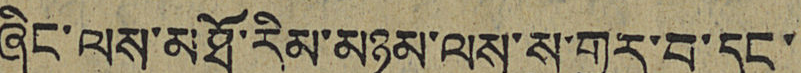ཞིང་ལས་མཐོ་རིམ་མཉམ་ལས་སུ་གྱུར་བ་དང་
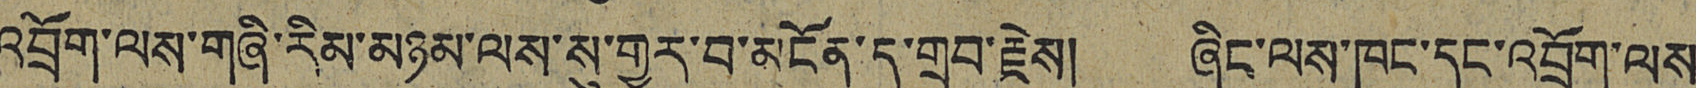འབྲོག་ལས་གཞི་རིམ་མཉམ་ལས་སུ་གྱུར་བ་མངོན་དུ་གྲུབ་རྗེས། ཞིང་ལས་ཁང་དང་འབྲོག་ལས་
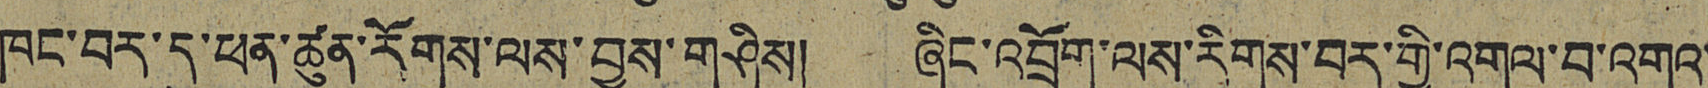ཁང་བར་དུ་ཕན་ཚུན་རོགས་ལས་བྱས་གཤིས། ཞིང་འབྲོག་ལས་རིགས་བར་གྱི་འགལ་བ་འགའ་
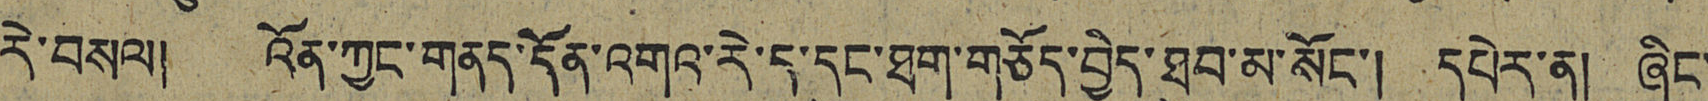རེ་བསལ། འོན་ཀྱང་གནད་དོན་འགའ་རེ་ད་དུང་ཐག་གཅོད་བྱེད་ཐུབ་མ་སོང་། དཔེར་ན། ཞིང་
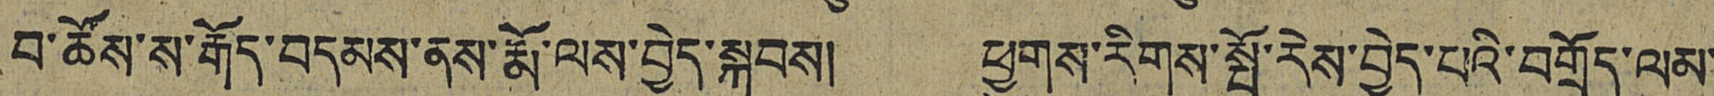བ་ཚོས་ས་རྒོད་བདམས་ནས་རྨོ་ལས་བྱེད་སྐབས། ཕྱུགས་རིགས་སྤོ་རེས་བྱེད་པའི་བགྲོད་ལམ་
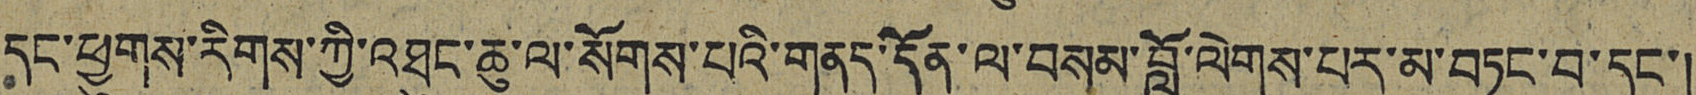དང་ཕྱུགས་རིགས་ཀྱི་འཐུང་ཆུ་ལ་སོགས་པའི་གནད་དོན་ལ་བསམ་བློ་ལེགས་པར་མ་བཏང་བ་དང་།
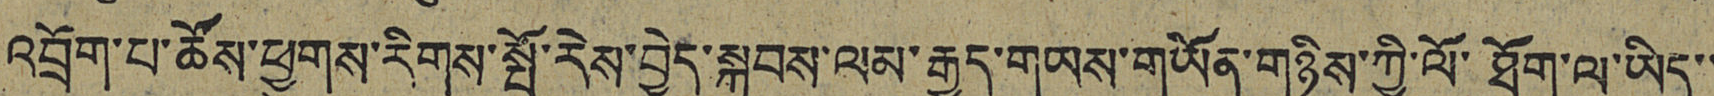འབྲོག་པ་ཚོས་ཕྱུགས་རིགས་སྤོ་རེས་བྱེད་སྐབས་ལམ་རྒྱུད་གཡས་གཡོན་གཉིས་ཀྱི་ལོ་ཐོག་ལ་ཡིད་་
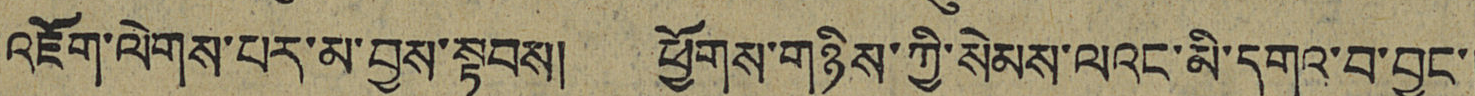འཇོག་ལེགས་པར་མ་བྱས་སྟབས། ཕྱོགས་གཉིས་ཀྱི་སེམས་ལའང་མི་དགའ་བ་བྱུང་།
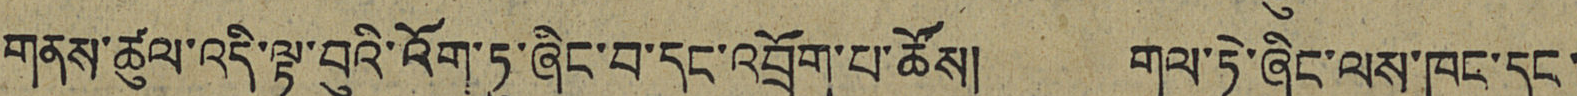གནས་ཚུལ་འདི་ལྟ་བུའི་འོག་ཏུ་ཞིང་བ་དང་འབྲོག་པ་ཚོས། གལ་ཏེ་ཞིང་ལས་ཁང་དང་
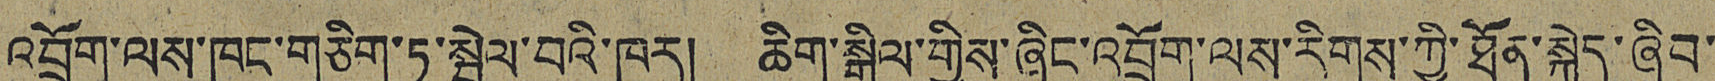འབྲོག་ལས་ཁང་གཅིག་ཏུ་སྦྲེལ་བའི་ཁར། ཆིག་སྒྲིལ་གྱིས་ཞིང་འབྲོག་ལས་རིགས་ཀྱི་ཐོན་སྐྱེད་ཞིབ་
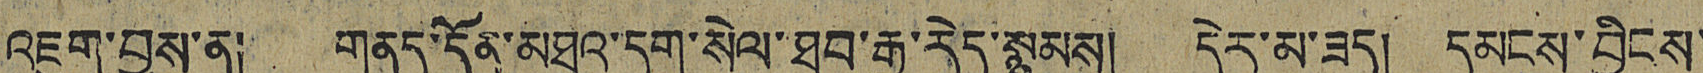འཇུག་བྱས་ན། གནད་དོན་མཐའ་དག་སེལ་ཐུབ་རྒྱུ་རེད་སྙམས། དེར་མ་ཟད། དམངས་བྱིངས་
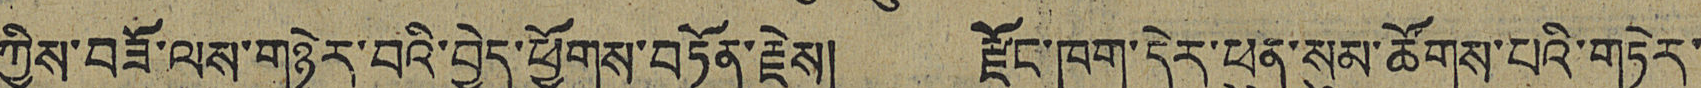ཀྱིས་བཟོ་ལས་གཉེར་་བའི་བྱེད་ཕྱོགས་བཏོན་རྗེས། རྫོང་ཁག་དེར་ཕུན་སུམ་ཚོགས་པའི་གཏེར་
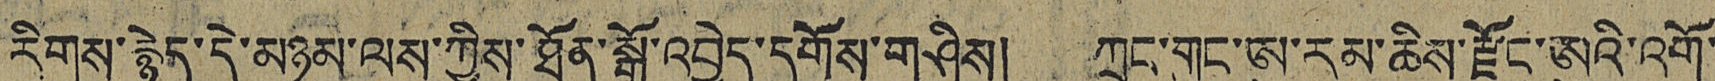རིགས་རྙེད་དེ་མཉམ་ལས་ཀྱིས་ཐོན་སྒོ་འབྱེད་དགོས་གཤིས། ཀྲུང་གུང་ཨུ་རུམ་ཆིས་རྫོང་ཨུའི་འགོ་
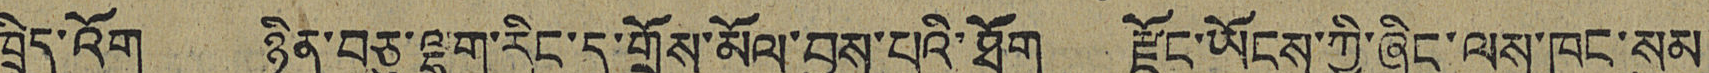ཁྲིད་འོག ཉིན་བཅུ་ལྷག་རིང་དུ་གྲོས་མོལ་བྱས་པའི་ཐོག རྫོང་ཡོངས་ཀྱི་ཞིང་ལས་ཁང་སུམ
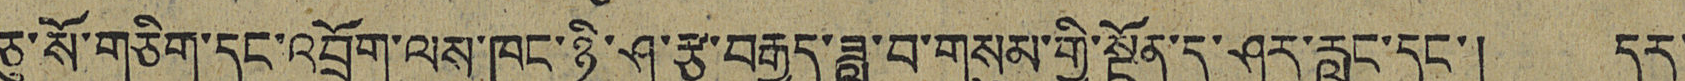ཅུ་སོ་གཅིག་དང་འབྲོག་ལས་ཁང་ཉི་ཤུ་རྩ་བརྒྱད་ཟླ་བ་གསུམ་གྱི་སྔོན་དུ་ཤར་རླུང་དང་། དར་
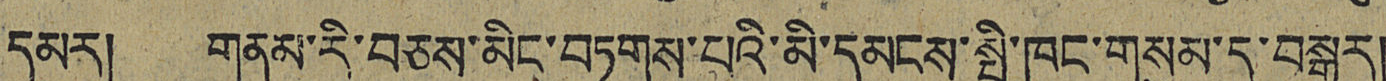དམར། གནམ་རི་བཅས་མིང་བཏགས་པའི་མི་དམངས་སྤྱི་ཁང་གསུམ་དུ་བསྒྱུར།
